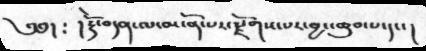༄༅། ༴ །རྡོེ་བདན་ལ་མངོན་པར་རྫོགས་པར་བྱང་ཆུབ་པ་དང་།
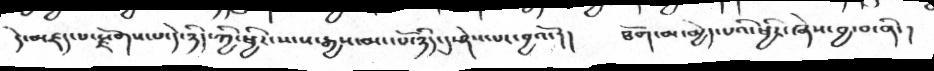དེ་མཛད་པ་རྫོགས་པ་དེ་ཉིད་ཀྱི་ཕྱིར་སངས་རྒྱས་མང་པོ་ཉིད་དུ་ཤེས་པར་བྱའོ་།།  ཐོག་མ་མྱེད་པའི་ཕྱིར་ཞེས་བྱ་བ་ནི་།
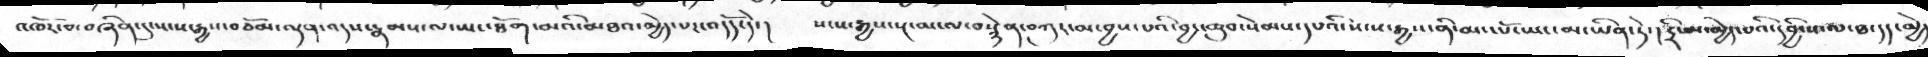འཁོར་བ་བཞིན་དུ་སངས་རྒྱས་བཅོམ་ལྡན་འདས་རྣམས་ལ་ཡང་ཐོག་མའི་མཐའ་མྱེད་པར་འདོད་དེ་།   སངས་རྒྱས་སྔ་མ་ལ་བསྙེན་བཀུར་མ་བྱས་པའི་བྱང་ཆུབ་སེམས་དཔའི་སངས་རྒྱས་ནི་མང་པོ་ཡང་མ་ཡིན་ཏེ་།  དྲི་མ་མྱེད་པའི་དབྱིངས་ལ་ཐ་དད་མྱེད
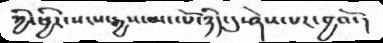ཀྱི་ཕྱིར་སངས་རྒྱས་མང་པོ་ཉིད་དུ་ཤེས་པར་བྱའོ་།
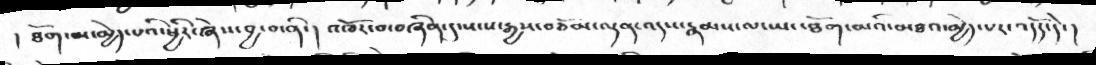།  ཐོག་མ་མྱེད་པའི་ཕྱིར་ཞེས་བྱ་བ་ནི་།   འཁོར་བ་བཞིན་དུ་སངས་རྒྱས་བཅོམ་ལྡན་འདས་རྣམས་ལ་ཡང་ཐོག་མའི་མཐའ་མྱེད་པར་འདོད་དེ་།
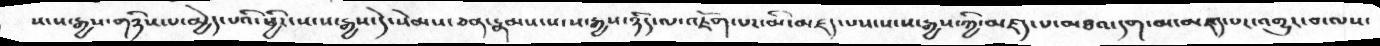སངས་རྒྱས་གཉིས་པ་མྱེད་པའི་ཕྱིར་སངས་རྒྱས་དེ་སེམས་ཅན་རྣམས་སངས་རྒྱས་ཉིད་ལ་འཇོག་པར་མི་མཛད་པས་སངས་རྒྱས་ཀྱི་མཛད་པ་མཐའ་དག་མ་མཛད་པར་འགྱུར་བ་ལས་
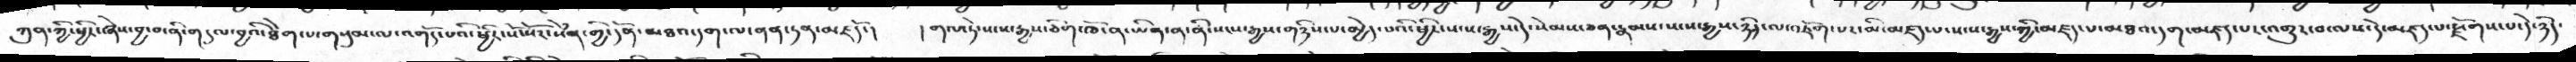ཀུན་གྱི་ཕྱིར་ཞེས་བྱ་བ་ནི་གདུལ་བྱའི་ཐེག་པ་གསུམ་ལ་འགོད་པའི་ཕྱིར་སོ་སོར་སེཾན་གྱི་དོན་མཐའ་དག་ལ་ནན་ཏན་མཛདོ་།   ། གལ་ཏེ་སངས་རྒྱས་ཅིག་ཁོ་ན་ཡིན་ན་ནི་སངས་རྒྱས་གཉིས་པ་མྱེད་པའི་ཕྱིར་སངས་རྒྱས་དེ་སེམས་ཅན་རྣམས་སངས་རྒྱས་ཉིད་ལ་འཇོག་པར་མི་མཛད་པ་སངས་རྒྱས་ཀྱི་མཛད་པ་མཐའ་དག་མཛད་པར་འགྱུར་བ་ལས་དེ་མཛད་པ་རྫོགས་པ་དེ་ཉིད་
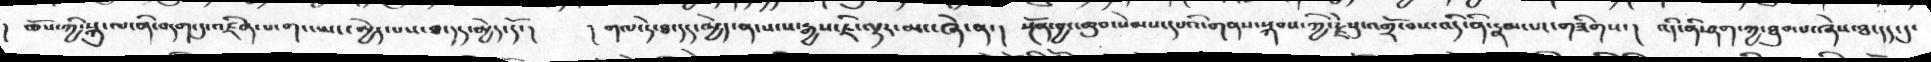། ཆོས་ཀྱི་སྐུ་ལ་ནི་བདག་དུ་འཛིན་པ་གང་ཡང་མྱེད་པས་ཐ་དད་མྱེད་དོ་།     ། གལ་ཏེ་ཐ་དད་མྱེད་ན་སངས་རྒྱས་ཇི་ལྟར་མང་ཞེ་ན་།   སྔོན་བྱང་ཆུབ་སེམས་དཔའི་གནས་སྐབས་ཀྱི་རྗེསུ་འགྲོ་བས་འདི་ནི་རྣམ་པར་གཟིགས་།   འདི་ནི་ཤཀ་ཀྱ་ཐུབ་པ་ཞེས་ཐ་དད་དུ་
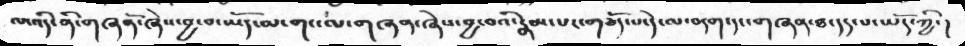ལ་འདི་ནི་གཞནོ་ཞེས་བྱ་བ་ཡོད་ལ་གང་ལ་གཞན་ཞེས་བྱ་བའི་རྣམ་པར་གཅོད་པ་དེ་ལ་བདག་དང་གཞན་ཐ་དད་པ་ཡོད་ཀྱི་།
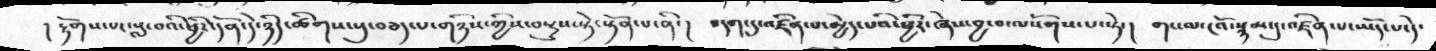།   རྟོགས་པར་སླ་བའི་ཕྱིར་དོན་དེ་ཉིད་ཚིགས་སུ་བཅད་པ་གཉིས་ཀྱིས་བསྡུས་སྟེ་སྟོན་པ་ནི་།    བདག་དུ་འཛིན་པ་མྱེད་པའི་ཕྱིར་ཞེས་བྱ་བ་ལསོགས་པ་སྟེ་།    གང་ལ་ངའོ་སྙམ་དུ་འཛིན་པ་ཡོད་པ་དེ་
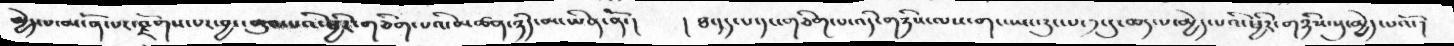མྱེད་པ་མངོན་པར་རྫོགས་པར་བྱང་ཆུབ་པའི་ཕྱིར་གཅིག་པའི་མཚན་ཉིད་མ་ཡིན་ནོ་།  ། ཐ་དད་པ་དང་གཅིག་པ་འདི་གཉིས་ལས་གང་ཡང་རུང་པ་༡་དུ་ཆད་མ་མྱེད་པའི་ཕྱིར་གཉིས་སུ་མྱེད་པའོ་།
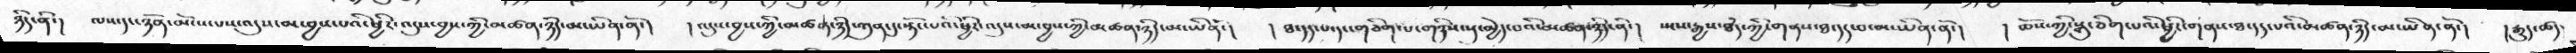ཉིད་ནི་།  ལས་དང་ཉོན་མོངས་པས་འདུས་མ་བྱས་པའི་ཕྱིར་འདུས་བྱས་ཀྱི་མཚན་ཉིད་མ་ཡིན་ནོ་།  །འདུས་བྱས་ཀྱི་མཚན་ཉིད་ཀུན་ཏུ་སྟོང་པའི་ཕྱིར་འདུས་མ་བྱས་ཀྱི་མཚན་ཉིད་མ་ཡིནོ་།  ། ཐ་དད་པ་དང་གཅིག་པ་གཉིས་སུ་མྱེད་པའི་མཚན་ཉིད་ནི་།  སངས་རྒྱས་ཐཾད་ཀྱི་གནས་ཐ་དད་པ་མ་ཡིན་ནོ་།  །  ཆོས་ཀྱི་སྐུ་ཅིག་པའི་ཕྱིར་གནས་ཐ་དད་པའི་མཚན་ཉིད་མ་ཡིན་ནོ་།  ། རྒྱུད་ཚད་
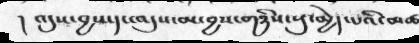།  འདུས་བྱས་དང་འདུས་མ་བྱས་གཉིས་སུ་མྱེད་པའི་མཚ
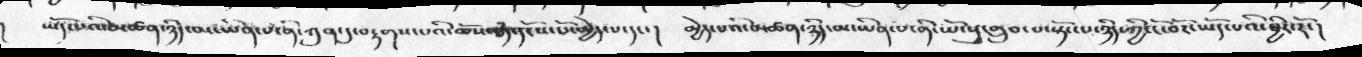།   ཡོད་པའི་མཚན་ཉིད་མ་ཡིན་པ་ནི་ཀུན་དུ་བརྟགས་པའི་ཆོས་ཉིད་དངོས་པོ་མྱེད་པ་དང་།  མྱེད་པའི་མཚན་ཉིད་མ་ཡིན་པ་ནི་ཡོངསུ་གྲུབ་པ་སྟོང་པ་ཉིད་ཀྱི་ངོ་བོར་ཡོད་པའི་ཕྱིར་རོ་།
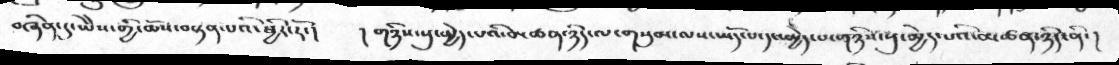བཞིན་དུ་ཡཻས་གྱི་ཆོས་བསྟན་པའི་ཕྱིར་རོ་།    ། གཉིས་སུ་མྱེད་པའི་མཚན་ཉིད་ལ་གསུམ་ལས་ཡོད་པ་དང་མྱེད་པ་གཉིས་སུ་མྱེད་པའི་མཚན་ཉིད་ནི་།
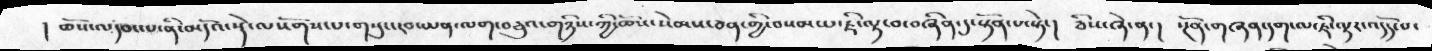།  ཆོས་ལ་དབང་པ་ནི་མདོའ་སྡེ་ལསོགས་པ་གསུང་རབ་ཡན་ལག་བཅུའ་གཉིས་ཀྱི་ཆོས་སེམས་ཅན་གྱི་བསམ་པ་ཇི་ལྟ་བ་བཞིན་དུ་སྟོན་པ་སྟེ་།  ཅིས་ཞེ་ན་།  སྔོན་གཞན་དག་ལ་ཇི་ལྟར་འདོད་པ་
